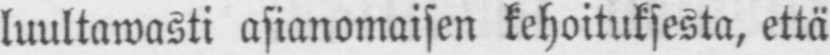luultawasti asianomaisen kehoituksesta, että
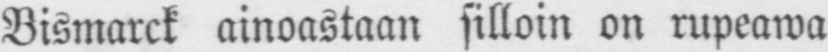Bismarck ainoastaan silloin on rupeawa
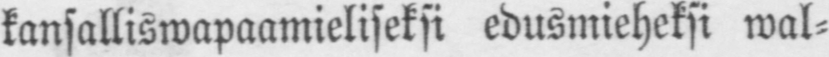kansalliswapaamieliseksi edusmieheksi wal-
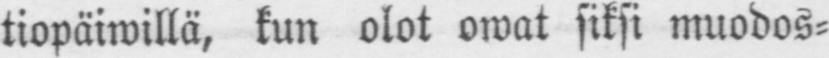tiopäiwillä, kun olot owat siksi muodos-
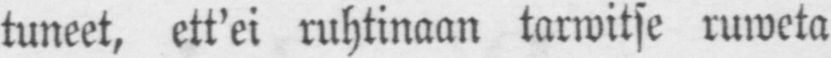tuneet, ett'ei nihtinään tarwitse ruweta
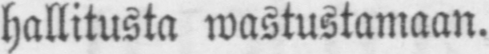hallitusta wastustamaan.
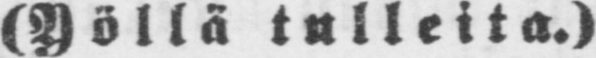(Yöllä tulleita.)
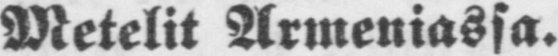Metelit Armeniassa.
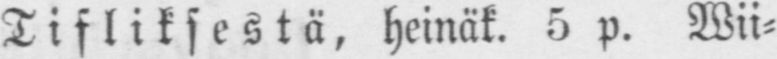Tifliksestä, heinäk. 5 p. Wii-
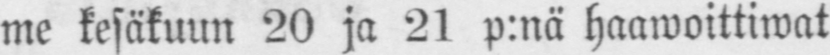me kesäkuun 20 ja 21 p:nä haawoittiwat
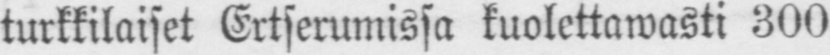turkkilaiset Ertserumissa kuolettawasti 300
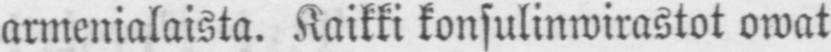armenialaista. Kaikki konsulinwirastot owat
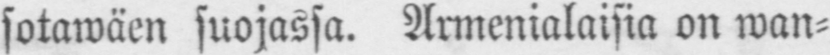sotawäen suojassa. Armenialaisia on wan-
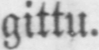gittu.
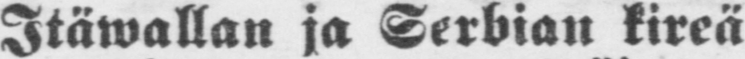Itäwallan ja Serbian kireä
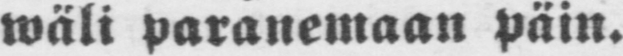wäli paranemaan päin.
